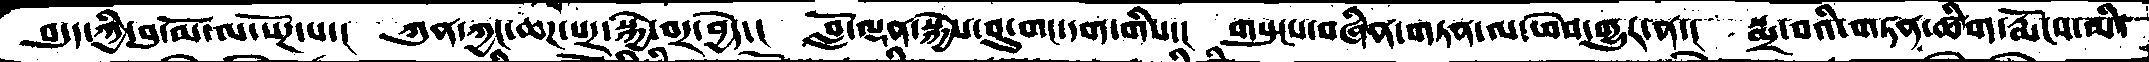བདུད་ཀྱི་བུ་མོ་ལ་སོཌ་པ་།  ཀུན་ཀྱང་ཆཌ་པར་སྐྱེ་བར་བྱེད་།  བློ་ལྡན་སྐྱེས་བུ་གང་དག་གིས་།  གསུངས་བཞིན་གཏན་ལ་ཕེབ་གྱུར་ན་།  སྨྲ་བའི་གཏན་ཚིག་རྨོངས་མི་
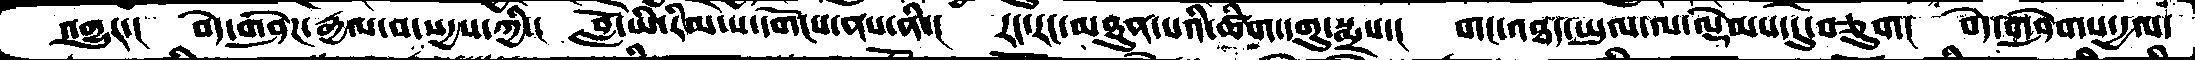འགྱུར་།  བདེ་གཤེཌ་རྒྱལ་བ་སདྱས་ཀྱི་།  བློ་ཡི་རིམ་པ་དགོངས་ནས་ནི་།  རང་རང་མཐུན་པའི་ཚིག་དགུ་སྨྲས་།  གང་འཐད་ཡུལ་ལ་ལྡེམས་དུ་བཅུག།  བདེ་གཤེགས་དྱལ་
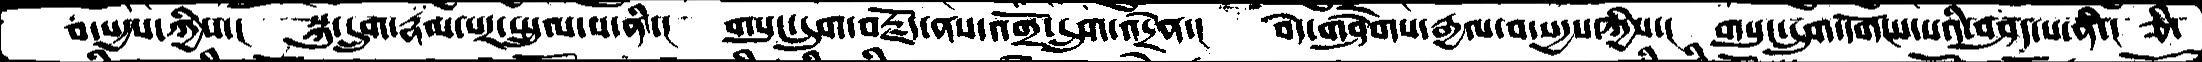བ་སདྱས་ཀྱིས་།  སྐུ་དྲུག་རྣམ་པར་སྤྲུལ་པ་ནི་།  གསུང་དྲུག་བརྗོད་ནས་འགྲོ་དྲུག་འདྲེན་།  བདེ་གཤེགས་རྒྱལ་བ་སདྱས་ཀྱིས་།  གསུང་དྲུག་དགོངས་པའི་བཤད་པ་ནི་། ཅི་
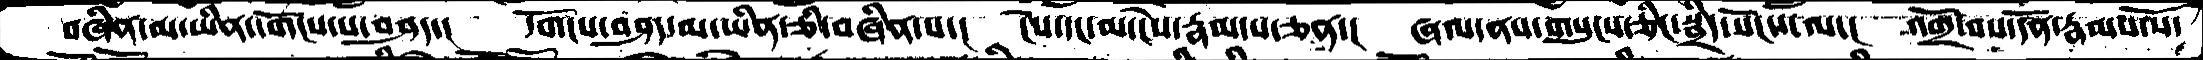བཞིན་མ་ཡིན་དགོངས་པ་བཤད་།  དགོངས་བཤད་མ་ཡིན་ཅི་བཞིན་པ་།  ངེས་དང་མ་ངེས་རྣམ་པ་ཅན་།  ཞལ་ནས་གསུངས་ཅིང་སྦྲིད་སོངས་ལ་།  འགྲོ་བས་དོན་རྣམས་སོ་
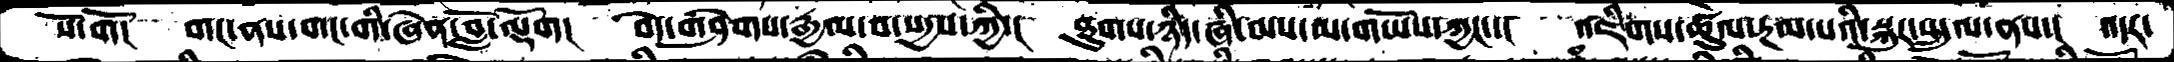སོ་གོང  གང་ནས་གང་གི་ཞེན་བློ་ལྡོག།  བདེ་གཤེགས་རྒྱལ་བ་སདྱས་ཀྱི་།  ཐུགས་ཉིད་ཞི་བས་མ་གཡོས་ཀྱང་་།  འཇིགས་ཚུལ་རྔམ་པའི་སྐུར་སྤྲུལ་ནས་། འདར་
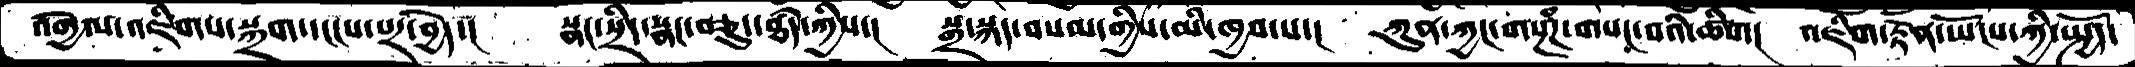འགྱེལ་འཇིགས་སྐྲག་དངངས་པར་བྱེད་།  སྣང་སྲིད་སྣང་བཅུད་ཐཾད་ཀྱིས་།  སྒྲ་སྐད་བསམ་གྱིས་མི་ཁྱབ་པ་།  ཀུན་ཀྱང་གསྔཾཌ་གསང་བའི་ཚིག།  འཇིག་རྟེན་ཡོངས་ཀྱི་སྤྱོད་
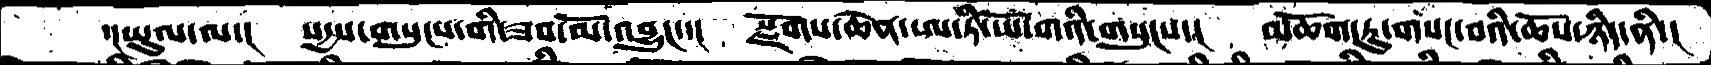་།ཡུལ་ལ་།   སདྱས་གསུངས་གི་ཟབ་མོ་འབྱུང་་།  སྫོགས་ཆེན་ཨ་ཏི་ཡོ་གའི་གསུངས་།  མཆོག་ཏུ་གསང་བའི་ཆོས་ཉིད་ནི་།
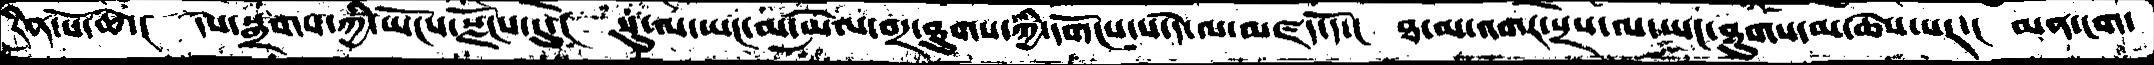རིན་པོ་ཆེ་།  དེས་སྒྲགས་ཀྱི་ཡོངས་སྫོངས་སུ་།  སུ་ལ་ཡང་མ་ཡེལ་བར་ཐུགས་ཀྱི་དགོངས་པ་དེ་ལ་མཛད་དོ་།  ཐ་མ་འགར་སྲེས་ལ་ཡང་ཐུགས་མ་ཆེས་པར་།  མན་ངག་
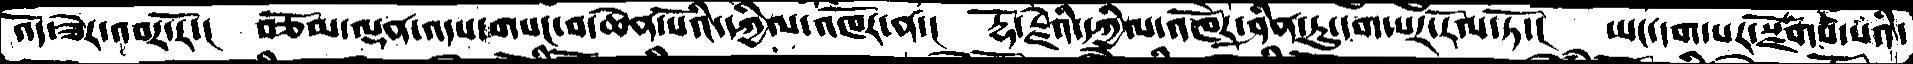འོད་ཟེར་འབར་རོ་།  བཅོམ་ལྡན་འདས་གསང་བ་ཆེན་པོའི་དཀྱིལ་འཁོར་ན་།  རྡོ་རྗེའི་དཀྱིལ་འཁོར་ཤིན་ཏུ་དག་པར་རོལ་ཏོ་།  ཡང་དག་པར་སྫོགས་པའི་
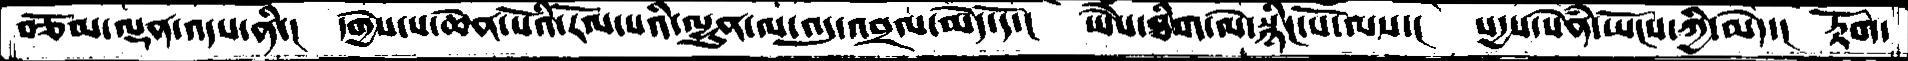བཅོམ་ལྡན་འདས་ནི་།  དགྱེས་པ་ཆེན་པོའི་རོལ་པའི་ལྷུན་ལ་འདུ་འབྲལ་མེད་དོ་།  ཡཻས་ཐིག་ལེ་སྙིང་པོ་ལས་།  སདྱས་སེཾན་ཡོངས་ཀྱི་མེད་།  རྟོག་
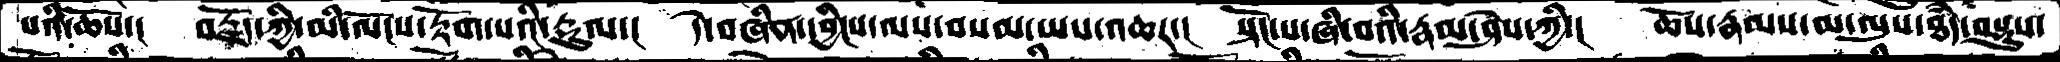པའི་ཆོས་།  བརྗོད་ཀྱི་མི་ལོངས་རྟོག་པའི་རྡུལ་།  དེ་བཞིན་དབྱིངས་ལས་བསམ་ཡས་འཆར་།  སྟོང་པ་ཞི་བའི་རྣམ་ཤེས་ཀྱི་།  ཆོས་རྣམས་མ་ལུས་ཐཾད་བསྡུས་
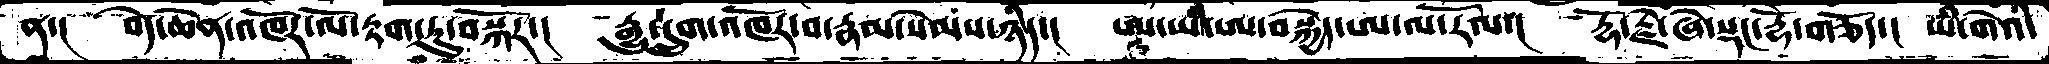ན་།  བདེ་ཆེན་འཁོར་ལོ་རྟག་ཏུ་བསྐོར་།  རྒྱུ་དྲུག་འཁོར་བ་རྣམ་སེམས་ཉིད་།  ཨ་ཡི་ཨ་བསྐྱེད་ཨ་ལ་རོལ་།  རྡོ་རྗེ་ཞེ་སྡང་རྡོེ་གཅོད་།  ཡི་གེའི་
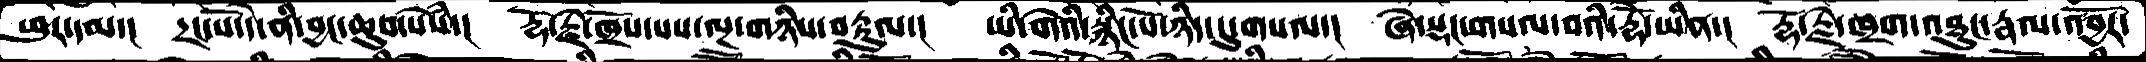ཕུར་དམ་།  དྲང་པོ་དེ་ནི་བྱང་ཆུབ་སེཾས་།  རྡོ་རྗེ་ཁྲོས་པས་ལྔ་གཉིས་བརྟུལ་་།  ཡི་གེའི་སྙིང་པོ་ཉིད་དུ་གསལ་།  ཞེ་སྡང་གསལ་བའི་རྡོེ་ཡིན་།  རྡོ་རྗེ་ཁྲག་འཐུང་རྣལ་འབྱོར་
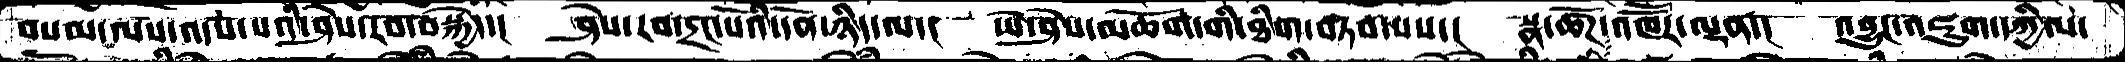བསམ་ལས་འདས་པའི་ཤེས་རབ་བསྐྱེད་།  ཤེས་རབ་དྲང་པོའི་དོན་ཉིད་ལ་།  ཡེ་ཤེས་མཆོག་གི་ཐིག་བཏབ་པས་།  སྣ་ཚོཌ་འཁཽར་ལྡན་།  འབྱུང་འཇུག་དཀྱིལ་
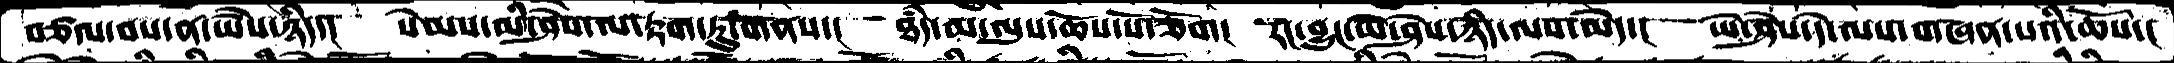བཙལ་བས་ན་ཡཻས་ཉིད་།  སེམས་མི་ཤེས་པ་རྟག་ཏུ་གནས་།  ཐཾད་མ་ལུས་ཆོས་སོ་ཅོག།  རང་བྱུང་ཡེ་ཤེས་ཉིད་ལས་མེད་།  ཡེ་ཤེས་དེ་ལས་གཞན་པའི་ཆོས་།
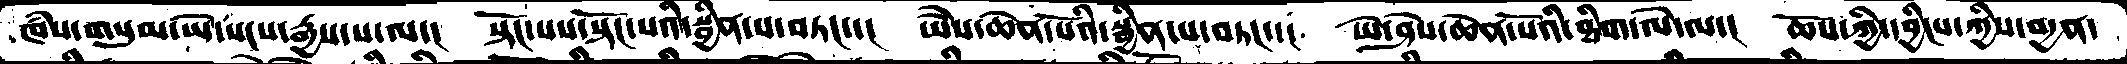ཁཾས་གསུམ་ཡེ་སངས་རྒྱས་པ་ལ་།  སྟོང་པས་སྟོང་པའི་སྦྱིན་པ་བཏང་།  ཡཻས་ཆེན་པོའི་སྦྱིན་པ་བཏང་།  ཡེ་ཤེས་ཆེན་པོའི་ཐིག་ལེ་ལ་།  ཆོས་ཀྱི་དབྱིངས་ཀྱིས་བདྱན་
